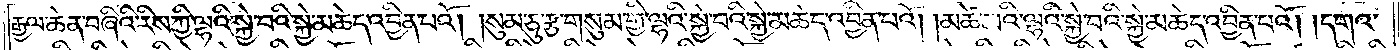རྒྱལ་ཆེན་བཞིའི་རིས་ཀྱི་ལྷའི་སྐྱེ་བའི་སྐྱེ་མཆེད་འབྱིན་པའོ། །སུམ་ཅུ་རྩ་གསུམ་གྱི་ལྷའི་སྐྱེ་བའི་སྐྱེ་མཆེད་འབྱིན་པའོ། །མཚེ་མའི་ལྷའི་སྐྱེ་བའི་སྐྱེ་མཆེད་འབྱིན་པའོ། །དགའ་
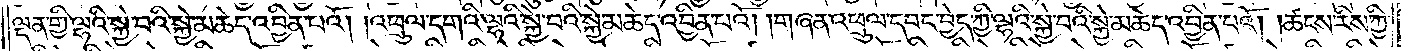ལྡན་གྱི་ལྷའི་སྐྱེ་བའི་སྐྱེ་མཆེད་འབྱིན་པའོ། །འཕྲུལ་དགའི་ལྷའི་སྐྱེ་བའི་སྐྱེ་མཆེད་འབྱིན་པའོ། །གཞན་འཕྲུལ་དབང་བྱེད་ཀྱི་ལྷའི་སྐྱེ་བའི་སྐྱེ་མཆེད་འབྱིན་པའོ། །ཚངས་རིས་ཀྱི་
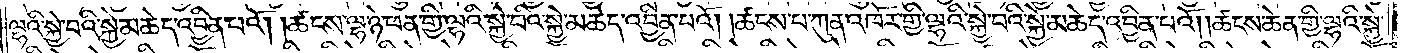ལྷའི་སྐྱེ་བའི་སྐྱེ་མཆེད་འབྱིན་པའོ། །ཚངས་ལྷ་ཉེ་ཕན་གྱི་ལྷའི་སྐྱེ་བའི་སྐྱེ་མཆེད་འབྱིན་པའོ། །ཚངས་པ་ཀུན་འཁོར་གྱི་ལྷའི་སྐྱེ་བའི་སྐྱེ་མཆེད་འབྱིན་པའོ། །ཚངས་ཆེན་གྱི་ལྷའི་སྐྱེ་
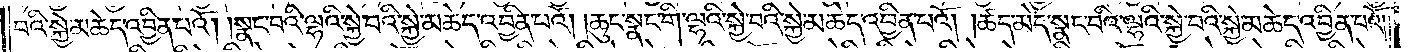བའི་སྐྱེ་མཆེད་འབྱིན་པའོ། །སྣང་བའི་ལྷའི་སྐྱེ་བའི་སྐྱེ་མཆེད་འབྱིན་པའོ། །ཆུང་སྣང་གི་ལྷའི་སྐྱེ་བའི་སྐྱེ་མཆེད་འབྱིན་པའོ། །ཚད་མེད་སྣང་བའི་ལྷའི་སྐྱེ་བའི་སྐྱེ་མཆེད་འབྱིན་པའོ། །
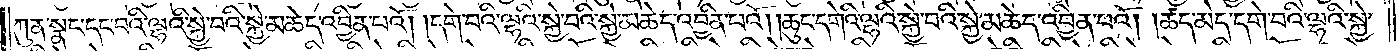ཀུན་སྣང་དང་བའི་ལྷའི་སྐྱེ་བའི་སྐྱེ་མཆེད་འབྱིན་པའོ། །དགེ་བའི་ལྷའི་སྐྱེ་བའི་སྐྱེ་མཆེད་འབྱིན་པའོ། །ཆུང་དགེའི་ལྷའི་སྐྱེ་བའི་སྐྱེ་མཆེད་འབྱིན་པའོ། །ཚད་མེད་དགེ་བའི་ལྷའི་སྐྱེ་
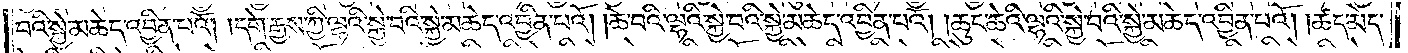བའི་སྐྱེ་མཆེད་འབྱིན་པའོ། །དགེ་རྒྱས་ཀྱི་ལྷའི་སྐྱེ་བའི་སྐྱེ་མཆེད་འབྱིན་པའོ། །ཆེ་བའི་ལྷའི་སྐྱེ་བའི་སྐྱེ་མཆེད་འབྱིན་པའོ། །ཆུང་ཆེའི་ལྷའི་སྐྱེ་བའི་སྐྱེ་མཆེད་འབྱིན་པའོ། །ཚད་མེད་
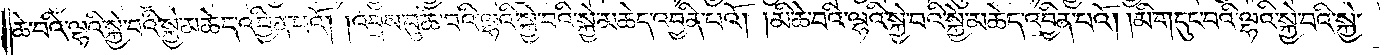ཆེ་བའི་ལྷའི་སྐྱེ་བའི་སྐྱེ་མཆེད་འབྱིན་པའོ། །འབྲས་བུ་ཆེ་བའི་ལྷའི་སྐྱེ་བའི་སྐྱེ་མཆེད་འབྱིན་པའོ། །མི་ཆེ་བའི་ལྷའི་སྐྱེ་བའི་སྐྱེ་མཆེད་འབྱིན་པའོ། །མི་གདུང་བའི་ལྷའི་སྐྱེ་བའི་སྐྱེ་
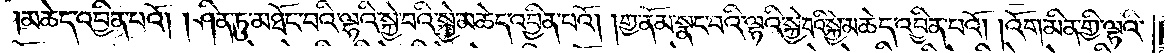མཆེད་འབྱིན་པའོ། །ཤིན་ཏུ་མཐོང་བའི་ལྷའི་སྐྱེ་བའི་སྐྱེ་མཆེད་འབྱིན་པའོ། །གྱ་ནོམ་སྣང་བའི་ལྷའི་སྐྱེ་བའི་སྐྱེ་མཆེད་འབྱིན་པའོ། །འོག་མིན་གྱི་ལྷའི་
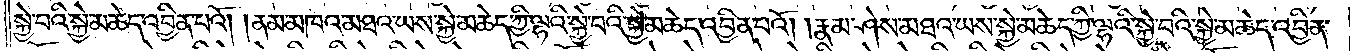སྐྱེ་བའི་སྐྱེ་མཆེད་འབྱིན་པའོ། །ནམ་མཁའ་མཐའ་ཡས་སྐྱེ་མཆེད་ཀྱི་ལྷའི་སྐྱེ་བའི་སྐྱེ་མཆེད་འབྱིན་པའོ། །རྣམ་ཤེས་མཐའ་ཡས་སྐྱེ་མཆེད་ཀྱི་ལྷའི་སྐྱེ་བའི་སྐྱེ་མཆེད་འབྱིན་
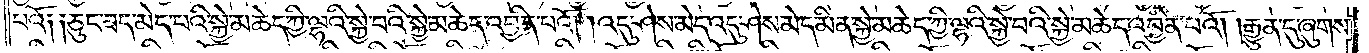པའོ༑ ༑ཅུང་ཟད་མེད་པའི་སྐྱེ་མཆེད་ཀྱི་ལྷའི་སྐྱེ་བའི་སྐྱེ་མཆེད་འབྱིན་པའོ། །འདུ་ཤེས་མེད་འདུ་ཤེས་མེད་མིན་སྐྱེ་མཆེད་ཀྱི་ལྷའི་སྐྱེ་བའི་སྐྱེ་མཆེད་འབྱིན་པའོ། །རྒྱུན་དུ་ཞུགས་
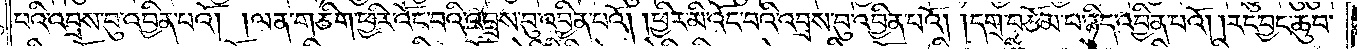པའི་འབྲས་བུ་འབྱིན་པའོ། །ལན་གཅིག་ཕྱིར་འོང་བའི་འབྲས་བུ་འབྱིན་པའོ། །ཕྱིར་མི་འོང་བའི་འབྲས་བུ་འབྱིན་པའོ། །དགྲ་བཅོམ་པ་ཉིད་འབྱིན་པའོ། །རང་བྱང་ཆུབ་
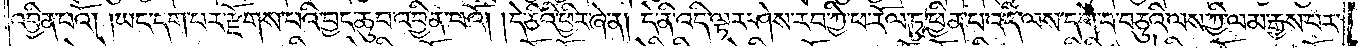འབྱིན་པའོ། །ཡང་དག་པར་རྫོགས་པའི་བྱང་ཆུབ་འབྱིན་པའོ། །དེ་ཅིའི་ཕྱིར་ཞེ་ན། དེ་ནི་འདི་ལྟར་ཤེས་རབ་ཀྱི་ཕ་རོལ་ཏུ་ཕྱིན་པ་འདི་ལས་དགེ་བ་བཅུའི་ལས་ཀྱི་ལམ་རྒྱས་པར་
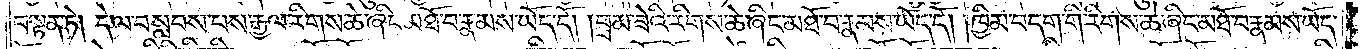བསྟན་ཏེ། དེ་ལ་བསླབས་པས་རྒྱལ་རིགས་ཆེ་ཞིང་མཐོ་བ་རྣམས་ཡོད་དོ། །བྲམ་ཟེའི་རིགས་ཆེ་ཞིང་མཐོ་བ་རྣམས་ཡོད་དོ། །ཁྱིམ་བདག་གི་རིགས་ཆེ་ཞིང་མཐོ་བ་རྣམས་ཡོད་
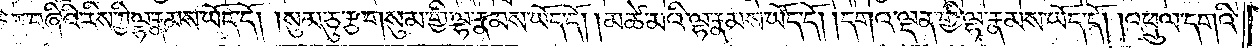དོ༑ ༑རྒྱལ་ཆེན་བཞིའི་རིས་ཀྱི་ལྷ་རྣམས་ཡོད་དོ། །སུམ་ཅུ་རྩ་གསུམ་གྱི་ལྷ་རྣམས་ཡོད་དོ། །མཚེ་མའི་ལྷ་རྣམས་ཡོད་དོ། །དགའ་ལྡན་གྱི་ལྷ་རྣམས་ཡོད་དོ། །འཕྲུལ་དགའི་
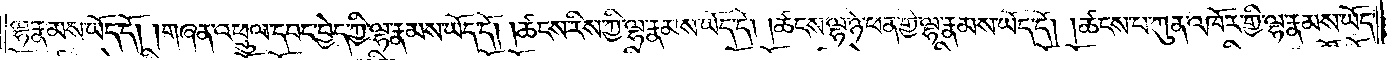ལྷ་རྣམས་ཡོད་དོ། །གཞན་འཕྲུལ་དབང་བྱེད་ཀྱི་ལྷ་རྣམས་ཡོད་དོ། །ཚངས་རིས་ཀྱི་ལྷ་རྣམས་ཡོད་དོ། །ཚངས་ལྷ་ཉེ་ཕན་གྱི་ལྷ་རྣམས་ཡོད་དོ། །ཚངས་པ་ཀུན་འཁོར་གྱི་ལྷ་རྣམས་ཡོད་
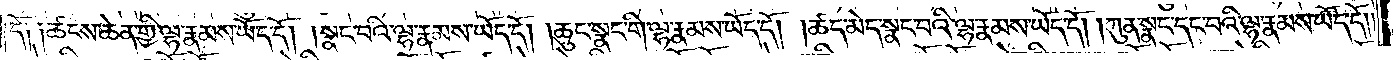དོ༑ ༑ཚངས་ཆེན་གྱི་ལྷ་རྣམས་ཡོད་དོ། །སྣང་བའི་ལྷ་རྣམས་ཡོད་དོ། །ཆུང་སྣང་གི་ལྷ་རྣམས་ཡོད་དོ། །ཚད་མེད་སྣང་བའི་ལྷ་རྣམས་ཡོད་དོ། །ཀུན་སྣང་དང་བའི་ལྷ་རྣམས་ཡོད་དོ། །
